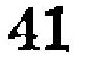41
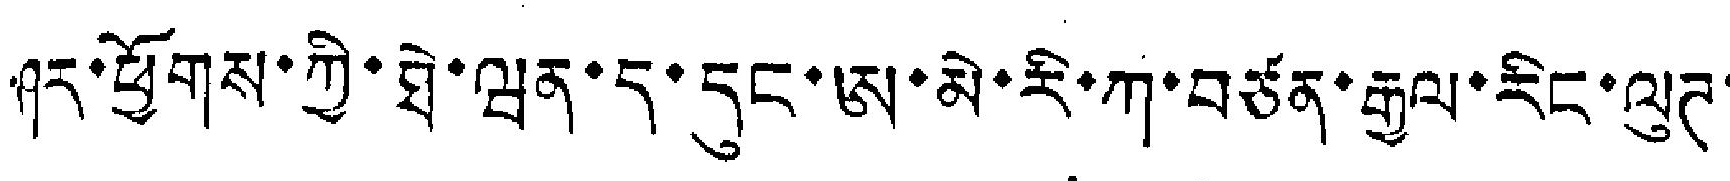ཤར་ཕྱོགས་ཀྱི་ཐེ་ཝན་ད་དུང་ཨ་མེ་རི་ཀ་བཙན་རྒྱལ་རིང་ལུཊ་
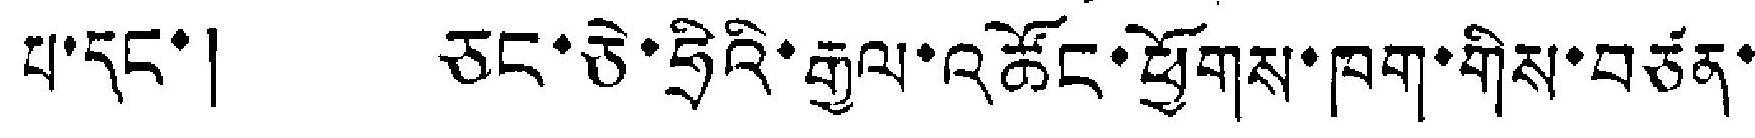པ་དང་། ཅང་ཅེ་ཧྲིའི་རྒྱལ་འཚོང་ཕྱོགས་ཁག་གིས་བཙན་
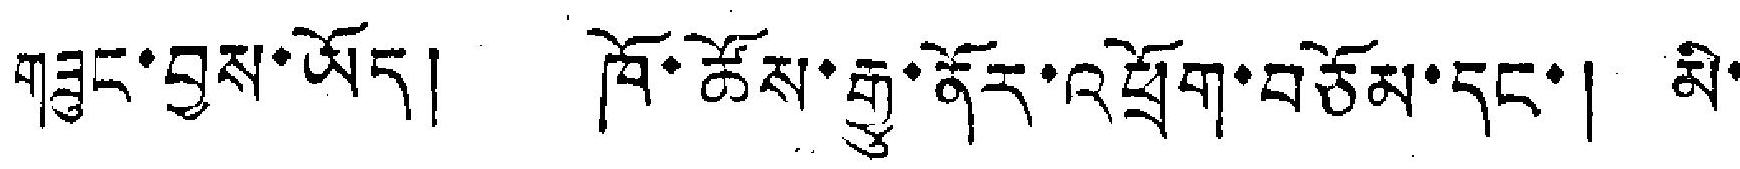གཟུང་བྱས་ཡོད། ཁོ་ཚོས་རྒྱུ་ནོར་འཕྲོག་བཅོམ་དང་། མི་
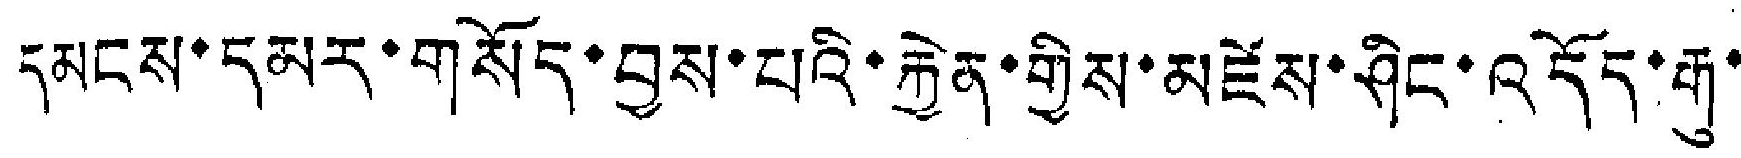དམངས་དམར་གསོད་བྱས་པའི་རྐྱེན་གྱིས་མཛེས་ཤིང་འདོད་རྒུ་
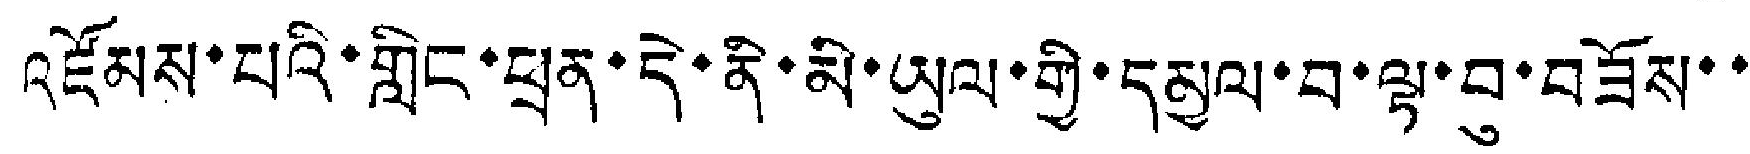འཛོམས་པའི་གླིང་ཕྲན་དེ་ནི་མི་ཡུལ་གྱི་དམྱལ་བ་ལྟ་བུ་བཟོས་་
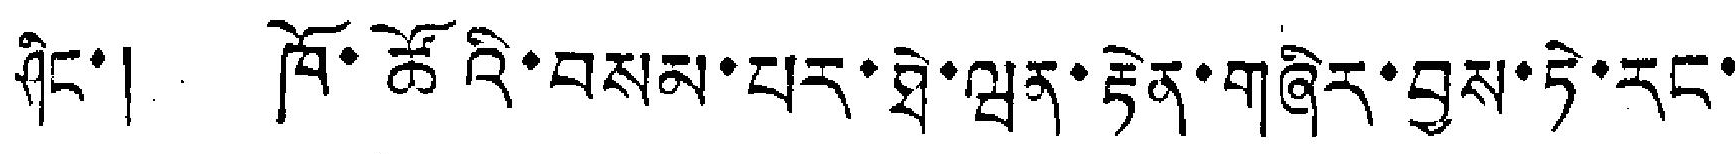ཞིང་། ཁོ་ཚོའི་བསམ་པར་ཐེ་ཝན་རྟེན་གཞིར་བྱས་ཏེ་རང་
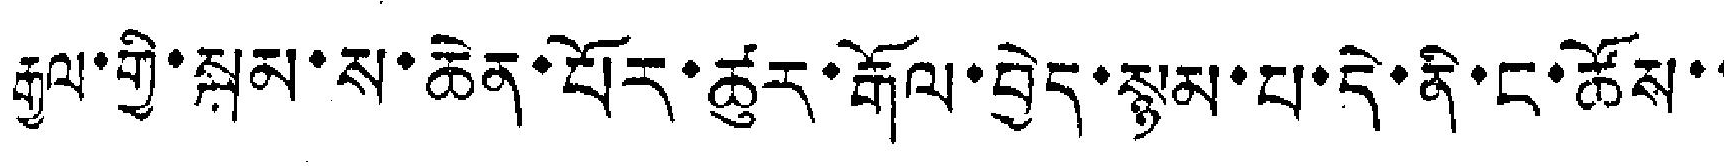རྒྱལ་གྱི་སྐམ་ས་ཆེན་པོར་ཚུར་རྒོལ་བྱེད་སྙམ་པ་དེ་ནི་ང་ཚོས་་
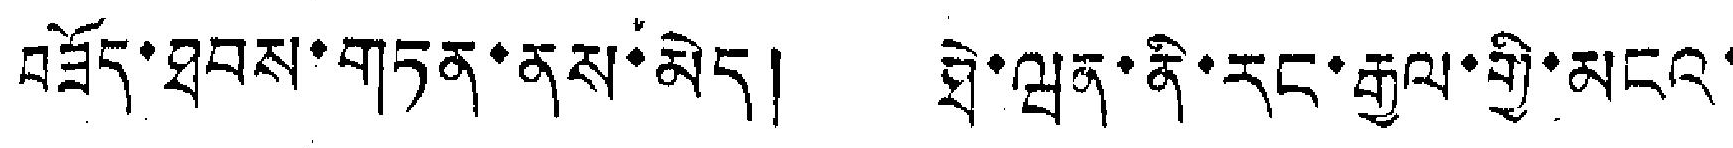བཟོད་ཐབས་གཏན་ནས་མེད། ཐེ་ཝན་ནི་རང་རྒྱལ་གྱི་མངའ་
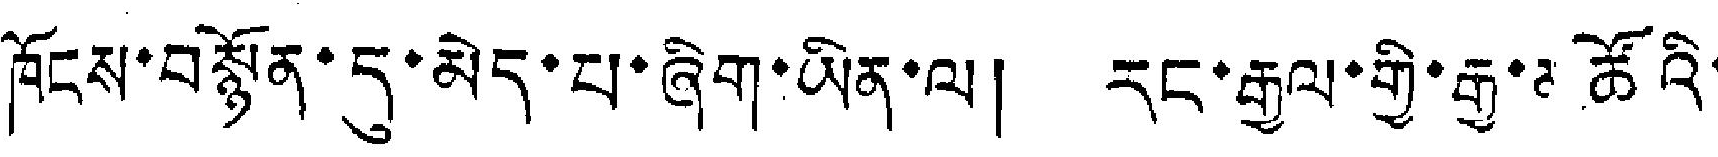ཁོངས་བསྙོན་དུ་མེད་པ་ཞིག་ཡིན་ལ། རང་རྒྱལ་གྱི་རྒྱ་མཚོའི་
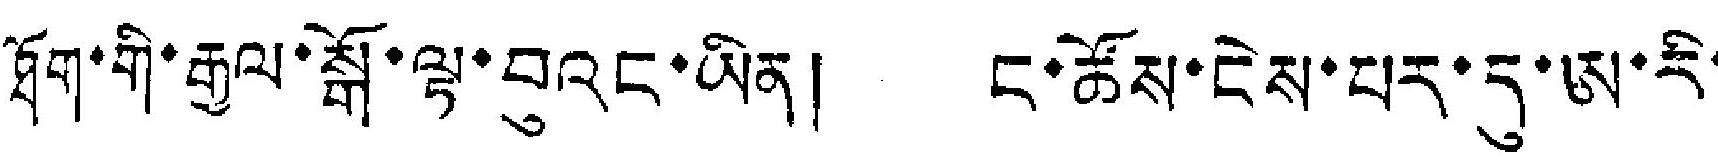ཐོག་གི་རྒྱལ་སྒོ་ལྟ་བུའང་ཡིན། ང་ཚོས་ངེས་པར་དུ་ཨ་རི་
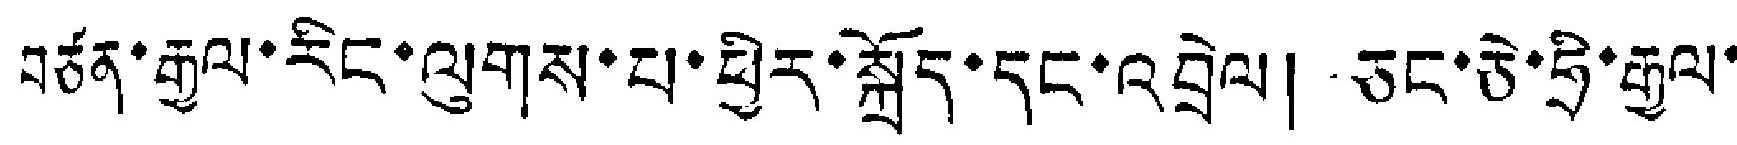བཙན་རྒྱལ་རིང་ལུགས་པ་ཕྱིར་སྐྱོད་དང་འབྲེལ། ཅང་ཅེ་ཧྲི་རྒྱལ་
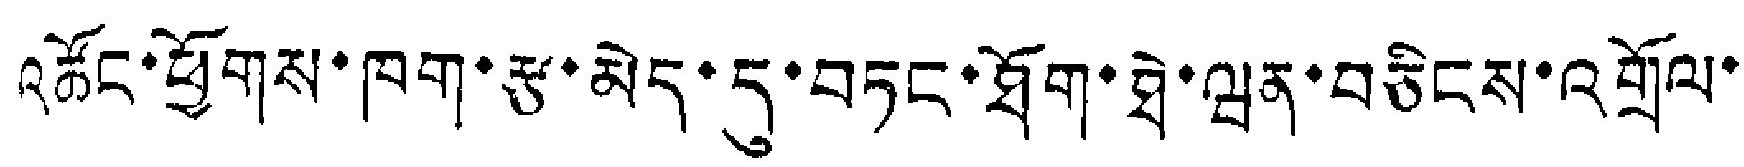འཚོང་ཕྱོགས་ཁག་རྩ་མེད་དུ་བཏང་ཐོག་ཐེ་ཝན་བཅིངས་འགྲོལ་
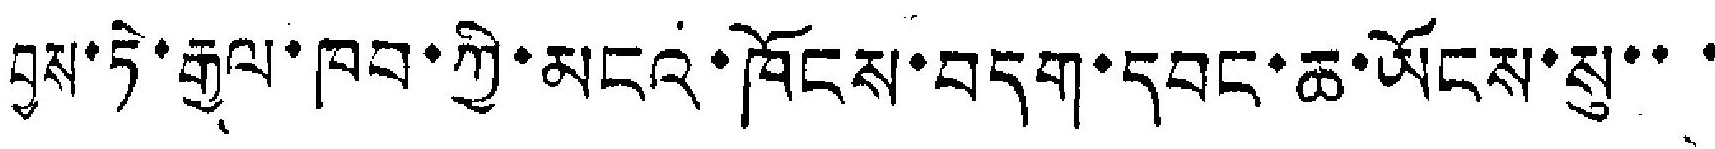བྱས་ཏེ་རྒྱལ་ཁབ་ཀྱི་མངའ་ཁོངས་བདག་དབང་ཆ་ཡོངས་སུ་་་
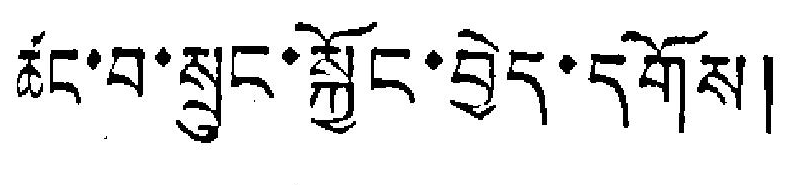ཚང་བ་སྲུང་སྐྱོང་བྱེད་དགོས།
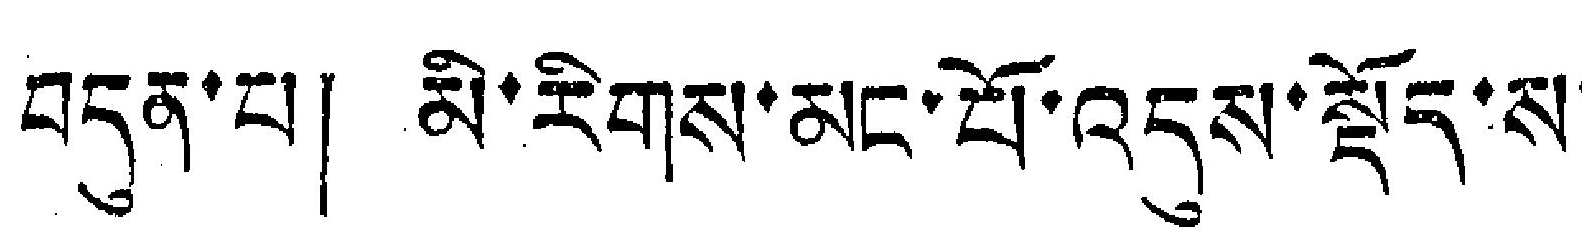བདུན་པ། མི་རིགས་མང་པོ་འདས་སྡོད་ས་
